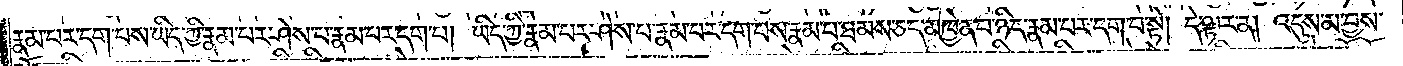རྣམ་པར་དག་པས་ཡིད་ཀྱི་རྣམ་པར་ཤེས་པ་རྣམ་པར་དག་པ། ཡིད་ཀྱི་རྣམ་པར་ཤེས་པ་རྣམ་པར་དག་པས་རྣམ་པ་ཐམས་ཅད་མཁྱེན་པ་ཉིད་རྣམ་པར་དག་པ་སྟེ། དེ་ལྟར་ན། འདུས་མ་བྱས་
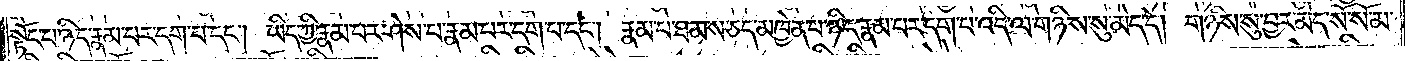སྟོང་པ་ཉིད་རྣམ་པར་དག་པ་དང༌། ཡིད་ཀྱི་རྣམ་པར་ཤེས་པ་རྣམ་པར་དག་པ་དང༌། རྣམ་པ་ཐམས་ཅད་མཁྱེན་པ་ཉིད་རྣམ་པར་དག་པ་འདི་ལ་གཉིས་སུ་མེད་དེ། གཉིས་སུ་བྱར་མེད་སོ་སོ་མ་
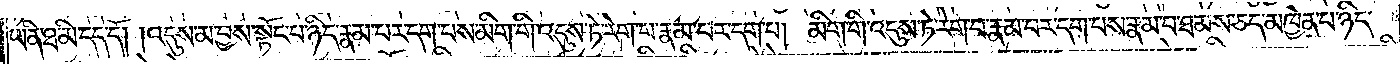ཡིན་ཐ་མི་དད་དོ། །འདུས་མ་བྱས་སྟོང་པ་ཉིད་རྣམ་པར་དག་པས་མིག་གི་འདུས་ཏེ་རེག་པ་རྣམ་པར་དག་པ། མིག་གི་འདུས་ཏེ་རེག་པ་རྣམ་པར་དག་པས་རྣམ་པ་ཐམས་ཅད་མཁྱེན་པ་ཉིད་
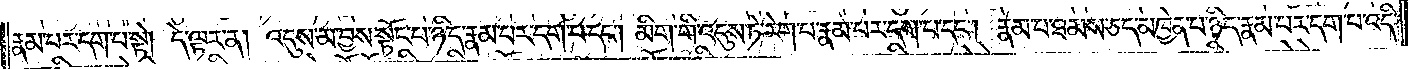རྣམ་པར་དག་པ་སྟེ། དེ་ལྟར་ན། འདུས་མ་བྱས་སྟོང་པ་ཉིད་རྣམ་པར་དག་པ་དང༌། མིག་གི་འདུས་ཏེ་རེག་པ་རྣམ་པར་དག་པ་དང༌། རྣམ་པ་ཐམས་ཅད་མཁྱེན་པ་ཉིད་རྣམ་པར་དག་པ་འདི་
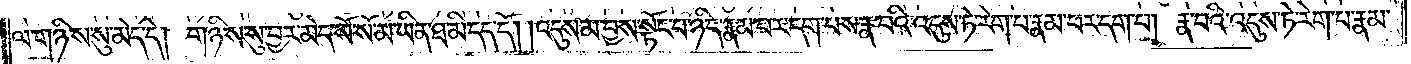ལ་གཉིས་སུ་མེད་དེ། གཉིས་སུ་བྱར་མེད་སོ་སོ་མ་ཡིན་ཐ་མི་དད་དོ། །འདུས་མ་བྱས་སྟོང་པ་ཉིད་རྣམ་པར་དག་པས་རྣ་བའི་འདུས་ཏེ་རེག་པ་རྣམ་པར་དག་པ། རྣ་བའི་འདུས་ཏེ་རེག་པ་རྣམ་
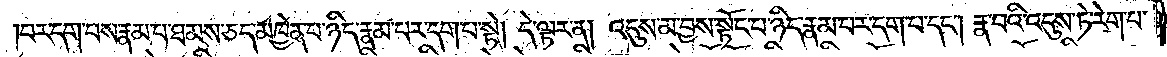པར་དག་པས་རྣམ་པ་ཐམས་ཅད་མཁྱེན་པ་ཉིད་རྣམ་པར་དག་པ་སྟེ། དེ་ལྟར་ན། འདུས་མ་བྱས་སྟོང་པ་ཉིད་རྣམ་པར་དག་པ་དང༌། རྣ་བའི་འདུས་ཏེ་རེག་པ་
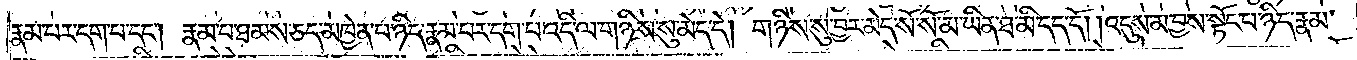རྣམ་པར་དག་པ་དང༌། རྣམ་པ་ཐམས་ཅད་མཁྱེན་པ་ཉིད་རྣམ་པར་དག་པ་འདི་ལ་གཉིས་སུ་མེད་དེ། གཉིས་སུ་བྱར་མེད་སོ་སོ་མ་ཡིན་ཐ་མི་དད་དོ། །འདུས་མ་བྱས་སྟོང་པ་ཉིད་རྣམ་
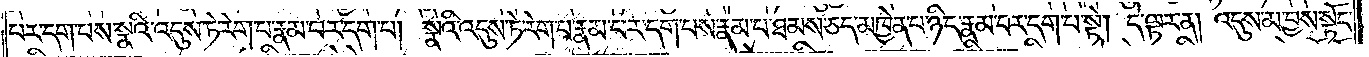པར་དག་པས་སྣའི་འདུས་ཏེ་རེག་པ་རྣམ་པར་དག་པ། སྣའི་འདུས་ཏེ་རེག་པ་རྣམ་པར་དག་པས་རྣམ་པ་ཐམས་ཅད་མཁྱེན་པ་ཉིད་རྣམ་པར་དག་པ་སྟེ། དེ་ལྟར་ན། འདུས་མ་བྱས་སྟོང་
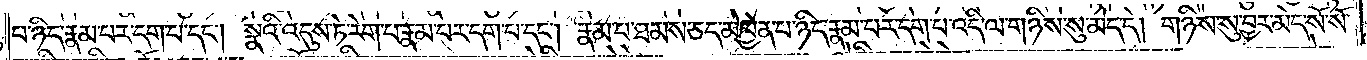པ་ཉིད་རྣམ་པར་དག་པ་དང༌། སྣའི་འདུས་ཏེ་རེག་པ་རྣམ་པར་དག་པ་དང༌། རྣམ་པ་ཐམས་ཅད་མཁྱེན་པ་ཉིད་རྣམ་པར་དག་པ་འདི་ལ་གཉིས་སུ་མེད་དེ། གཉིས་སུ་བྱར་མེད་སོ་སོ་
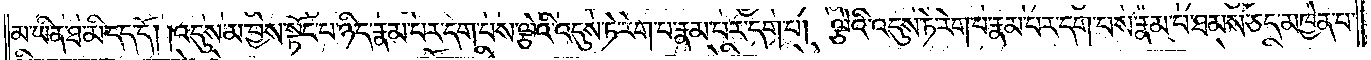མ་ཡིན་ཐ་མི་དད་དོ། །འདུས་མ་བྱས་སྟོང་པ་ཉིད་རྣམ་པར་དག་པས་ལྕེའི་འདུས་ཏེ་རེག་པ་རྣམ་པར་དག་པ། ལྕེའི་འདུས་ཏེ་རེག་པ་རྣམ་པར་དག་པས་རྣམ་པ་ཐམས་ཅད་མཁྱེན་པ་
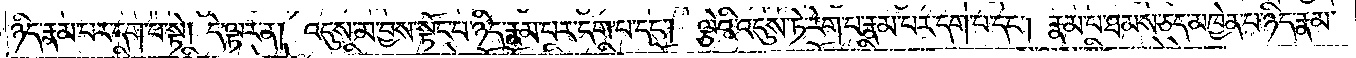ཉིད་རྣམ་པར་དག་པ་སྟེ། དེ་ལྟར་ན། འདུས་མ་བྱས་སྟོང་པ་ཉིད་རྣམ་པར་དག་པ་དང༌། ལྕེའི་འདུས་ཏེ་རེག་པ་རྣམ་པར་དག་པ་དང༌། རྣམ་པ་ཐམས་ཅད་མཁྱེན་པ་ཉིད་རྣམ་
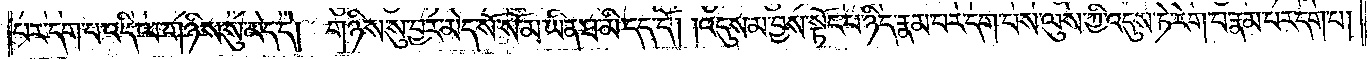པར་དག་པ་འདི་ལ་གཉིས་སུ་མེད་དེ། གཉིས་སུ་བྱར་མེད་སོ་སོ་མ་ཡིན་ཐ་མི་དད་དོ། །འདུས་མ་བྱས་སྟོང་པ་ཉིད་རྣམ་པར་དག་པས་ལུས་ཀྱི་འདུས་ཏེ་རེག་པ་རྣམ་པར་དག་པ།
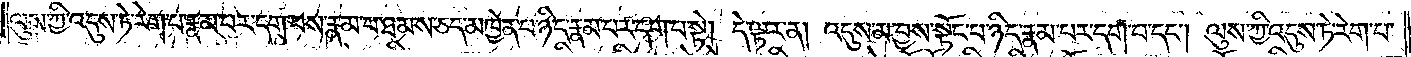ལུས་ཀྱི་འདུས་ཏེ་རེག་པ་རྣམ་པར་དག་པས་རྣམ་པ་ཐམས་ཅད་མཁྱེན་པ་ཉིད་རྣམ་པར་དག་པ་སྟེ། དེ་ལྟར་ན། འདུས་མ་བྱས་སྟོང་པ་ཉིད་རྣམ་པར་དག་པ་དང༌། ལུས་ཀྱི་འདུས་ཏེ་རེག་པ་
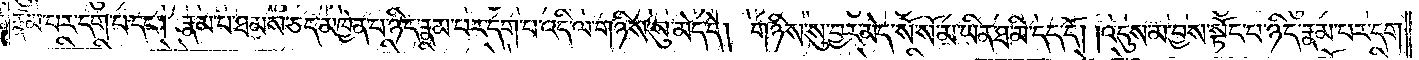རྣམ་པར་དག་པ་དང༌། རྣམ་པ་ཐམས་ཅད་མཁྱེན་པ་ཉིད་རྣམ་པར་དག་པ་འདི་ལ་གཉིས་སུ་མེད་དེ། གཉིས་སུ་བྱར་མེད་སོ་སོ་མ་ཡིན་ཐ་མི་དད་དོ། །འདུས་མ་བྱས་སྟོང་པ་ཉིད་རྣམ་པར་དག་
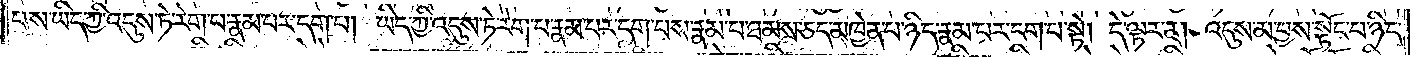པས་ཡིད་ཀྱི་འདུས་ཏེ་རེག་པ་རྣམ་པར་དག་པ། ཡིད་ཀྱི་འདུས་ཏེ་རེག་པ་རྣམ་པར་དག་པས་རྣམ་པ་ཐམས་ཅད་མཁྱེན་པ་ཉིད་རྣམ་པར་དག་པ་སྟེ། དེ་ལྟར་ན། འདུས་མ་བྱས་སྟོང་པ་ཉིད་
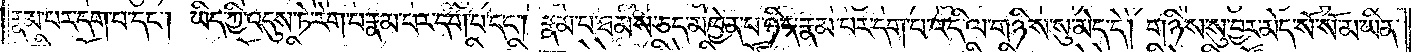རྣམ་པར་དག་པ་དང༌། ཡིད་ཀྱི་འདུས་ཏེ་རེག་པ་རྣམ་པར་དག་པ་དང༌། རྣམ་པ་ཐམས་ཅད་མཁྱེན་པ་ཉིད་རྣམ་པར་དག་པ་འདི་ལ་གཉིས་སུ་མེད་དེ། གཉིས་སུ་བྱར་མེད་སོ་སོ་མ་ཡིན་
